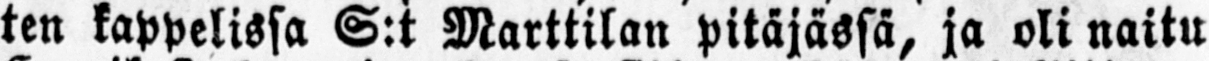ten kappelissa S:t Marttilan pitäjässä, ja oli naitu
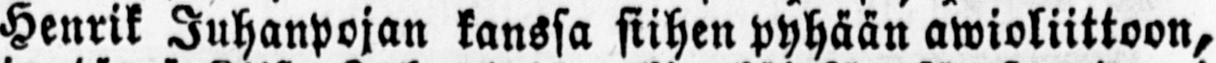Henrik Juhanpojan kanssa siihen pyhään awioliittoon,
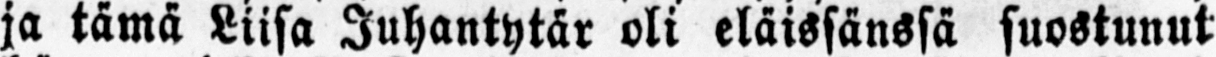ja tämä Liisa Juhantytär oli eläissänssä suostunut
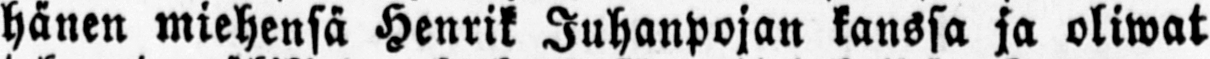hänen miehensä Henrik Juhanpojan kanssa ja oliwat
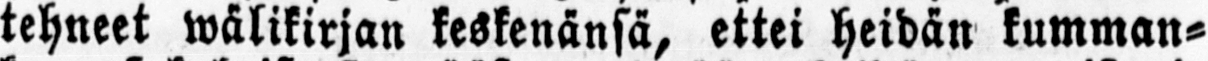tehneet wälikirjan keskenänsä, ettei heidän kumman-
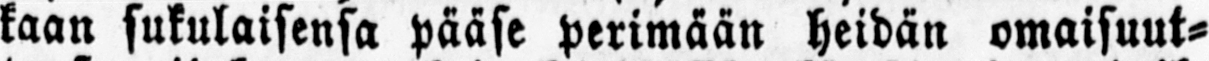kaan sukulaisensa pääse perimään heidän omaisuut-
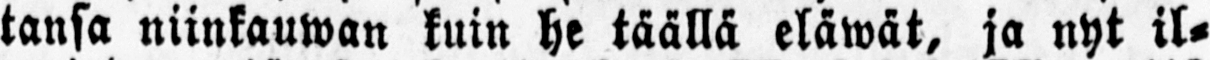tansa niinkauwan kuin he täällä eläwät, ja nyt il-
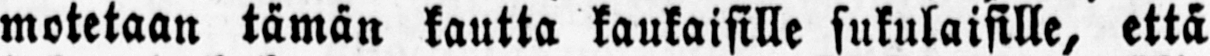motetaan tämän kautta kaukaisille sukulaisille, että
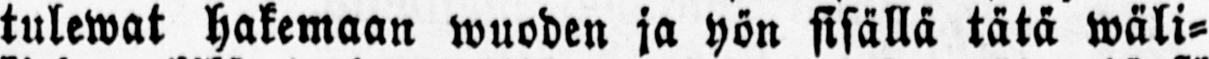tulewat hakemaan wuoden ja yön sisällä tätä wäli-
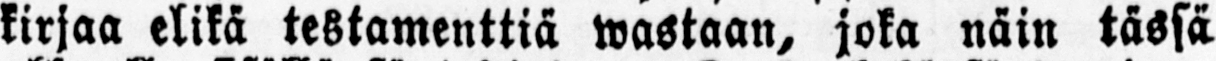kirjaa elikä testamenttiä wastaan, joka näin tässä
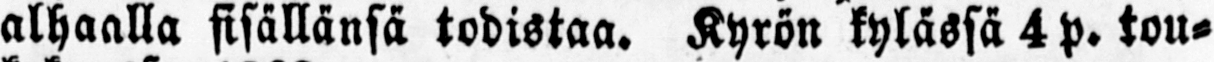alhaalla sisällänsä todistaa. Kyrön kylässä 4 p. tou-
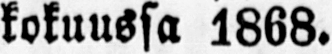kokuussa 1868.
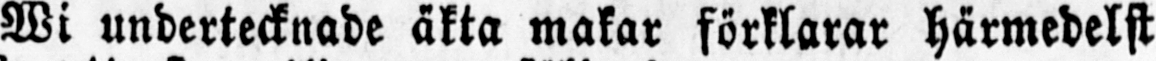Wi undertecknade äkta makar förklarar härmedelst
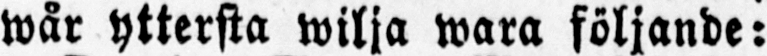wår yttersta wilja wara följande:
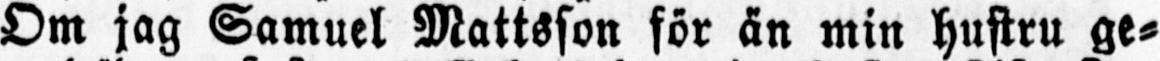Om jag Samuel Mattsson för än min hustru ge-
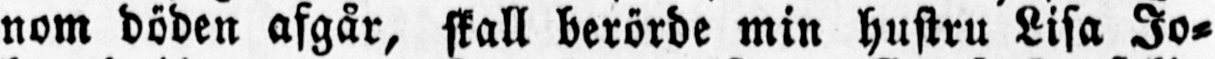nom döden akgår, skall berörde min hustru Lisa Jo-
